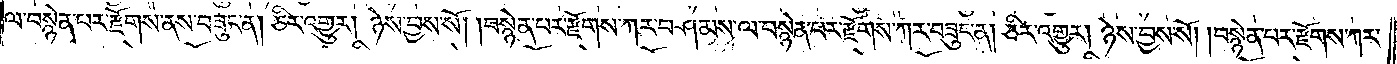ལ་བསྙེན་པར་རྫོགས་ནས་བཟུང་ན། ཅིར་འགྱུར། ཉེས་བྱས་སོ། །བསྙེན་པར་རྫོགས་ཀར་བཤམས་ལ་བསྙེན་པར་རྫོགས་ཀར་བཟུང་ན། ཅིར་འགྱུར། ཉེས་བྱས་སོ། །བསྙེན་པར་རྫོགས་ཀར་
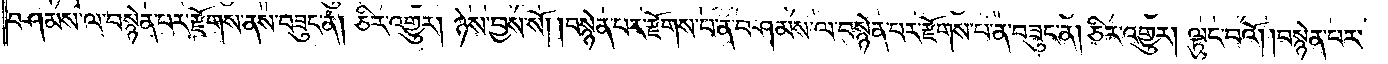བཤམས་ལ་བསྙེན་པར་རྫོགས་ནས་བཟུང་ན། ཅིར་འགྱུར། ཉེས་བྱས་སོ། །བསྙེན་པར་རྫོགས་པ་ན་བཤམས་ལ་བསྙེན་པར་རྫོགས་པ་ན་བཟུང་ན། ཅིར་འགྱུར། ལྟུང་བའོ། །བསྙེན་པར་
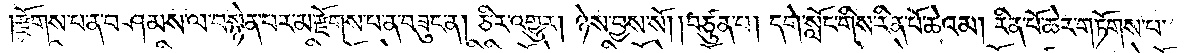རྫོགས་པ་ན་བཤམས་ལ་བསྙེན་པར་མ་རྫོགས་པ་ན་བཟུང་ན། ཅིར་འགྱུར། ཉེས་བྱས་སོ། །བཙུན་པ། དགེ་སློང་གིས་རིན་པོ་ཆེའམ། རིན་པོ་ཆེར་གཏོགས་པ་
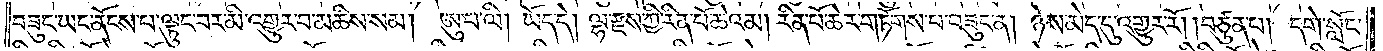བཟུང་ཡང་ནོངས་པ་ལྟུང་བར་མི་འགྱུར་བ་མཆིས་སམ། ཨུ་པ་ལི། ཡོད་དེ། ལྷ་རྫས་ཀྱི་རིན་པོ་ཆེའམ། རིན་པོ་ཆེར་གཏོགས་པ་བཟུང་ན། ཉེས་མེད་དུ་འགྱུར་རོ། །བཙུན་པ། དགེ་སློང་
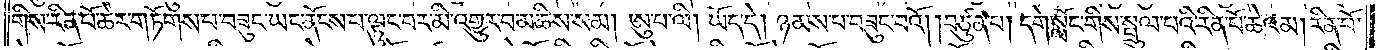གིས་རིན་པོ་ཆེར་གཏོགས་པ་བཟུང་ཡང་ནོངས་པ་ལྟུང་བར་མི་འགྱུར་བ་མཆིས་སམ། ཨུ་པ་ལི། ཡོད་དེ། ཉམས་པ་བཟུང་བའོ། །བཙུན་པ། དགེ་སློང་གིས་སྤྲུལ་པའི་རིན་པོ་ཆེའམ། རིན་པོ་
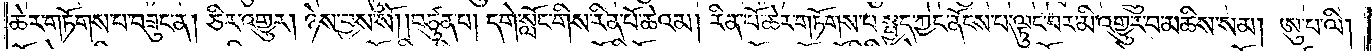ཆེར་གཏོགས་པ་བཟུང་ན། ཅིར་འགྱུར། ཉེས་བྱས་སོ། །བཙུན་པ། དགེ་སློང་གིས་རིན་པོ་ཆེའམ། རིན་པོ་ཆེར་གཏོགས་པ་སྤྱད་ཀྱང་ནོངས་པ་ལྟུང་བར་མི་འགྱུར་བ་མཆིས་སམ། ཨུ་པ་ལི།
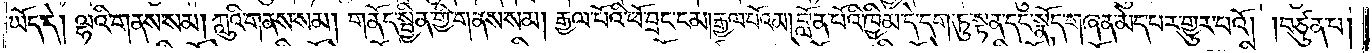ཡོད་དེ། ལྷའི་གནས་སམ། ཀླུའི་གནས་སམ། གནོད་སྦྱིན་གྱི་གནས་སམ། རྒྱལ་པོའི་ཕོ་བྲང་ངམ། རྒྱལ་པོའམ། བློན་པོའི་ཁྱིམ་དེ་དག་ཏུ་སྟན་དང་སྣོད་གཞན་མེད་པར་གྱུར་པའོ། །བཙུན་པ།
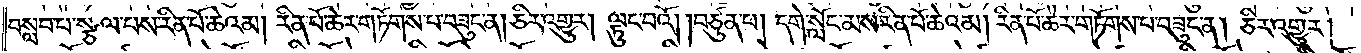བསླབ་པ་སྩལ་པས་རིན་པོ་ཆེའམ། རིན་པོ་ཆེར་གཏོགས་པ་བཟུང་ན། ཅིར་འགྱུར། ལྟུང་བའོ། །བཙུན་པ། དགེ་སློང་མས་རིན་པོ་ཆེའམ། རིན་པོ་ཆེར་གཏོགས་པ་བཟུང་ན། ཅིར་འགྱུར།
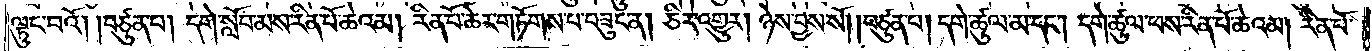ལྟུང་བའོ། །བཙུན་པ། དགེ་སློབ་མས་རིན་པོ་ཆེའམ། རིན་པོ་ཆེར་གཏོགས་པ་བཟུང་ན། ཅིར་འགྱུར། ཉེས་བྱས་སོ། །བཙུན་པ། དགེ་ཚུལ་མ་དང༌། དགེ་ཚུལ་ཕས་རིན་པོ་ཆེའམ། རིན་པོ་
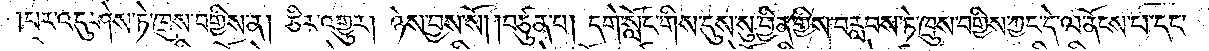།པར་འདུ་ཤེས་ཏེ་ཁྲུས་བགྱིས་ན། ཅིར་འགྱུར། ཉེས་བྱས་སོ། །བཙུན་པ། དགེ་སློང་གིས་དུས་སུ་བྱིན་གྱིས་བརླབས་ཏེ་ཁྲུས་བགྱིས་ཀྱང་དེ་ལ་ནོངས་པ་དང་
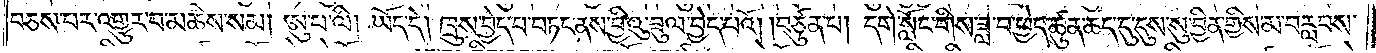བཅས་པར་འགྱུར་བ་མཆིས་སམ། ཨུ་པ་ལི། ཡོད་དེ། ཁྲུས་བྱེད་པ་བཏང་ནས་བྱིའུ་ཟུལ་བྱེད་པའོ། །བཙུན་པ། དགེ་སློང་གིས་ཟླ་བ་ཕྱེད་ཚུན་ཆད་དུ་དུས་སུ་བྱིན་གྱིས་མ་བརླབས་
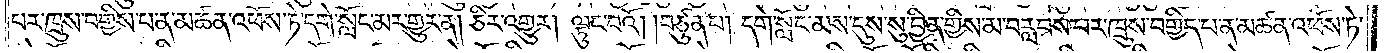པར་ཁྲུས་བགྱིས་པ་ན་མཚན་འཕོས་ཏེ་དགེ་སློང་མར་གྱུར་ན། ཅིར་འགྱུར། ལྟུང་བའོ། །བཙུན་པ། དགེ་སློང་མས་དུས་སུ་བྱིན་གྱིས་མ་བརླབས་པར་ཁྲུས་བགྱིད་པ་ན་མཚན་འཕོས་ཏེ་
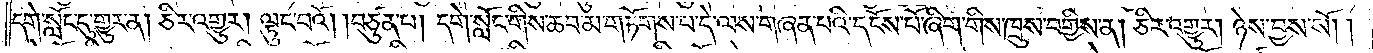དགེ་སློང་དུ་གྱུར་ན། ཅིར་འགྱུར། ལྟུང་བའོ། །བཙུན་པ། དགེ་སློང་གིས་ཆབ་མ་གཏོགས་པ་དེ་ལས་གཞན་པའི་དངོས་པོ་ཞིག་གིས་ཁྲུས་བགྱིས་ན། ཅིར་འགྱུར། ཉེས་བྱས་སོ། །
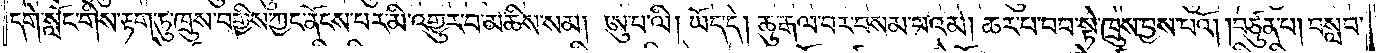དགེ་སློང་གིས་རྟག་ཏུ་ཁྲུས་བགྱིས་ཀྱང་ནོངས་པར་མི་འགྱུར་བ་མཆིས་སམ། ཨུ་པ་ལི། ཡོད་དེ། ཆུ་རྒལ་བར་བསམ་པའམ། ཆར་པ་བབ་སྟེ་ཁྲུས་བྱས་པའོ། །བཙུན་པ། བསླབ་
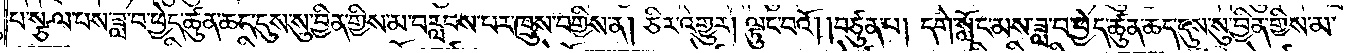པ་སྩལ་པས་ཟླ་བ་ཕྱེད་ཚུན་ཆད་དུས་སུ་བྱིན་གྱིས་མ་བརླབས་པར་ཁྲུས་བགྱིས་ན། ཅིར་འགྱུར། ལྟུང་བའོ། །བཙུན་པ། དགེ་སློང་མས་ཟླ་བ་ཕྱེད་ཚུན་ཆད་དུས་སུ་བྱིན་གྱིས་མ་
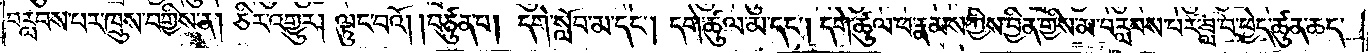བརླབས་པར་ཁྲུས་བགྱིས་ན། ཅིར་འགྱུར། ལྟུང་བའོ། །བཙུན་པ། དགེ་སློབ་མ་དང༌། དགེ་ཚུལ་མ་དང༌། དགེ་ཚུལ་ཕ་རྣམས་ཀྱིས་བྱིན་གྱིས་མ་བརླབས་པར་ཟླ་བ་ཕྱེད་ཚུན་ཆད་
